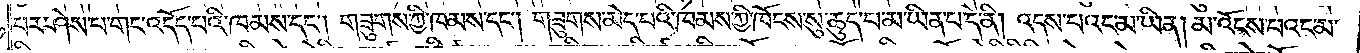པར་ཤེས་པ་གང་འདོད་པའི་ཁམས་དང༌། གཟུགས་ཀྱི་ཁམས་དང༌། གཟུགས་མེད་པའི་ཁམས་ཀྱི་ཁོངས་སུ་ཆུད་པ་མ་ཡིན་པ་དེ་ནི། འདས་པའང་མ་ཡིན། མ་འོངས་པའང་མ་
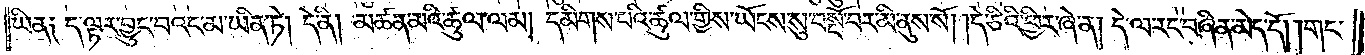ཡིན༑ ད་ལྟར་བྱུང་བའང་མ་ཡིན་ཏེ། དེ་ནི། མཚན་མའི་ཚུལ་ལམ། དམིགས་པའི་ཚུལ་གྱིས་ཡོངས་སུ་བསྔོ་བར་མི་ནུས་སོ། །དེ་ཅིའི་ཕྱིར་ཞེ་ན། དེ་ལ་རང་བཞིན་མེད་དོ། །གང་
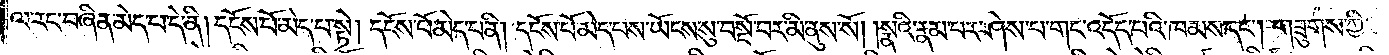ལ་རང་བཞིན་མེད་པ་དེ་ནི། དངོས་པོ་མེད་པ་སྟེ། དངོས་པོ་མེད་པ་ནི། དངོས་པོ་མེད་པས་ཡོངས་སུ་བསྔོ་བར་མི་ནུས་སོ། །སྣའི་རྣམ་པར་ཤེས་པ་གང་འདོད་པའི་ཁམས་དང༌། གཟུགས་ཀྱི་
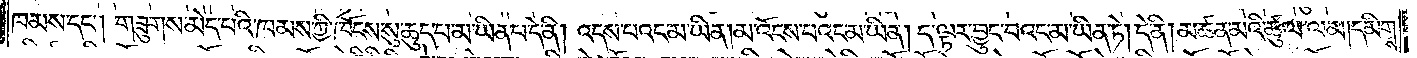ཁམས་དང༌། གཟུགས་མེད་པའི་ཁམས་ཀྱི་ཁོངས་སུ་ཆུད་པ་མ་ཡིན་པ་དེ་ནི། འདས་པའང་མ་ཡིན། མ་འོངས་པའང་མ་ཡིན། ད་ལྟར་བྱུང་བའང་མ་ཡིན་ཏེ། དེ་ནི། མཚན་མའི་ཚུལ་ལམ། དམིགས་
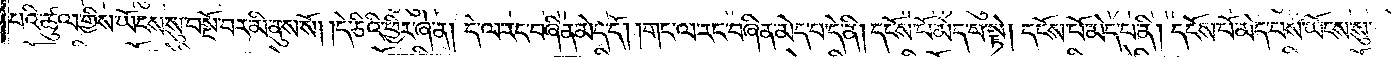པའི་ཚུལ་གྱིས་ཡོངས་སུ་བསྔོ་བར་མི་ནུས་སོ། །དེ་ཅིའི་ཕྱིར་ཞེ་ན། དེ་ལ་རང་བཞིན་མེད་དོ། །གང་ལ་རང་བཞིན་མེད་པ་དེ་ནི། དངོས་པོ་མེད་པ་སྟེ། དངོས་པོ་མེད་པ་ནི། དངོས་པོ་མེད་པས་ཡོངས་སུ་
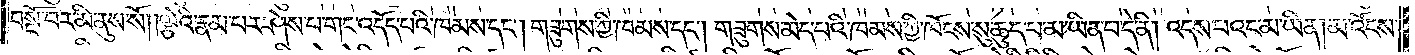བསྔོ་བར་མི་ནུས་སོ། །ལྕེའི་རྣམ་པར་ཤེས་པ་གང་འདོད་པའི་ཁམས་དང༌། གཟུགས་ཀྱི་ཁམས་དང༌། གཟུགས་མེད་པའི་ཁམས་ཀྱི་ཁོངས་སུ་ཆུད་པ་མ་ཡིན་པ་དེ་ནི། འདས་པའང་མ་ཡིན། མ་འོངས་
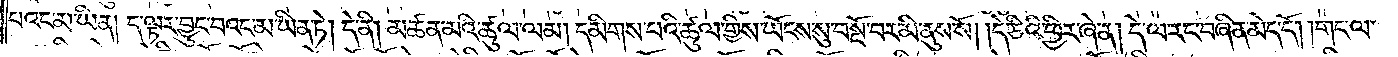པའང་མ་ཡིན། ད་ལྟར་བྱུང་བའང་མ་ཡིན་ཏེ། དེ་ནི། མཚན་མའི་ཚུལ་ལམ། དམིགས་པའི་ཚུལ་གྱིས་ཡོངས་སུ་བསྔོ་བར་མི་ནུས་སོ། །དེ་ཅིའི་ཕྱིར་ཞེ་ན། དེ་ལ་རང་བཞིན་མེད་དོ། །གང་ལ་
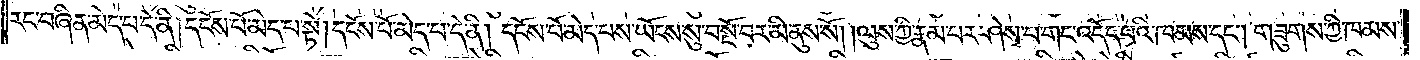རང་བཞིན་མེད་པ་དེ་ནི། དངོས་པོ་མེད་པ་སྟེ། དངོས་པོ་མེད་པ་དེ་ནི། དངོས་པོ་མེད་པས་ཡོངས་སུ་བསྔོ་བར་མི་ནུས་སོ། །ལུས་ཀྱི་རྣམ་པར་ཤེས་པ་གང་འདོད་པའི་ཁམས་དང༌། གཟུགས་ཀྱི་ཁམས་
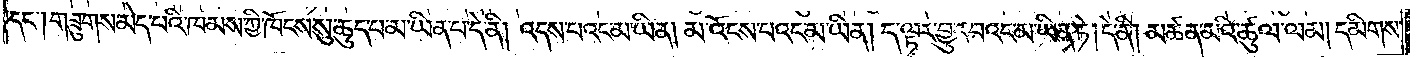དང༌། གཟུགས་མེད་པའི་ཁམས་ཀྱི་ཁོངས་སུ་ཆུད་པ་མ་ཡིན་པ་དེ་ནི། འདས་པའང་མ་ཡིན། མ་འོངས་པའང་མ་ཡིན། ད་ལྟར་བྱུང་བའང་མ་ཡིན་ཏེ། དེ་ནི། མཚན་མའི་ཚུལ་ལམ། དམིགས་
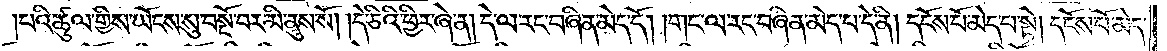པའི་ཚུལ་གྱིས་ཡོངས་སུ་བསྔོ་བར་མི་ནུས་སོ། །དེ་ཅིའི་ཕྱིར་ཞེ་ན། དེ་ལ་རང་བཞིན་མེད་དོ། །གང་ལ་རང་བཞིན་མེད་པ་དེ་ནི། དངོས་པོ་མེད་པ་སྟེ། དངོས་པོ་མེད་
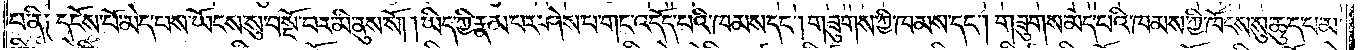པ་ནི༑ དངོས་པོ་མེད་པས་ཡོངས་སུ་བསྔོ་བར་མི་ནུས་སོ། །ཡིད་ཀྱི་རྣམ་པར་ཤེས་པ་གང་འདོད་པའི་ཁམས་དང༌། གཟུགས་ཀྱི་ཁམས་དང༌། གཟུགས་མེད་པའི་ཁམས་ཀྱི་ཁོངས་སུ་ཆུད་པ་མ་
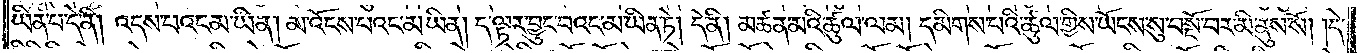ཡིན་པ་དེ་ནི། འདས་པའང་མ་ཡིན། མ་འོངས་པའང་མ་ཡིན། ད་ལྟར་བྱུང་བའང་མ་ཡིན་ཏེ། དེ་ནི། མཚན་མའི་ཚུལ་ལམ། དམིགས་པའི་ཚུལ་གྱིས་ཡོངས་སུ་བསྔོ་བར་མི་ནུས་སོ། །དེ་
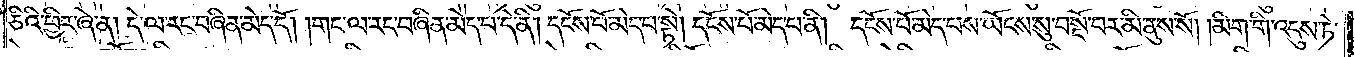ཅིའི་ཕྱིར་ཞེ་ན། དེ་ལ་རང་བཞིན་མེད་དོ། །གང་ལ་རང་བཞིན་མེད་པ་དེ་ནི། དངོས་པོ་མེད་པ་སྟེ། དངོས་པོ་མེད་པ་ནི། དངོས་པོ་མེད་པས་ཡོངས་སུ་བསྔོ་བར་མི་ནུས་སོ། །མིག་གི་འདུས་ཏེ་
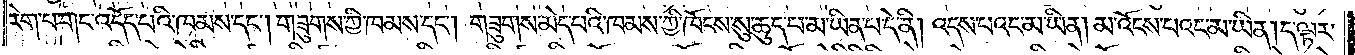རེག་པ་གང་འདོད་པའི་ཁམས་དང༌། གཟུགས་ཀྱི་ཁམས་དང༌། གཟུགས་མེད་པའི་ཁམས་ཀྱི་ཁོངས་སུ་ཆུད་བ་མ་ཡིན་པ་དེ་ནི། འདས་པའང་མ་ཡིན། མ་འོངས་པའང་མ་ཡིན། ད་ལྟར་
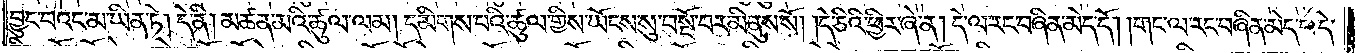བྱུང་བའང་མ་ཡིན་ཏེ། དེ་ནི། མཚན་མའི་ཚུལ་ལམ། དམིགས་པའི་ཚུལ་གྱིས་ཡོངས་སུ་བསྔོ་བར་མི་ནུས་སོ། །དེ་ཅིའི་ཕྱིར་ཞེ་ན། དེ་ལ་རང་བཞིན་མེད་དོ། །གང་ལ་རང་བཞིན་མེད་པ་དེ་
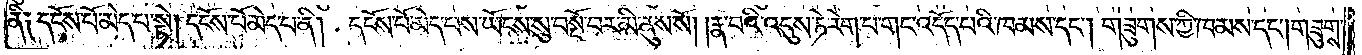ནི༑ དངོས་པོ་མེད་པ་སྟེ། དངོས་པོ་མེད་པ་ནི། དངོས་པོ་མེད་པས་ཡོངས་སུ་བསྔོ་བར་མི་ནུས་སོ། །རྣ་བའི་འདུས་ཏེ་རེག་པ་གང་འདོད་པའི་ཁམས་དང༌། གཟུགས་ཀྱི་ཁམས་དང༌། གཟུགས་
